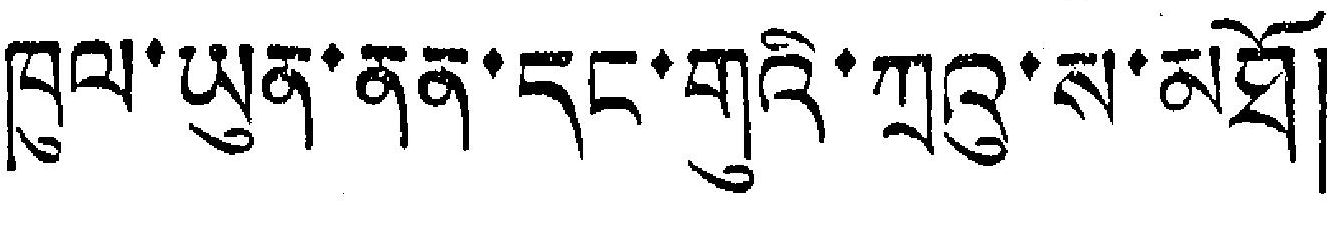ཁུལ་ཡུན་ནན་དང་གུའི་ཀྲའུ་ས་མཐོ།
